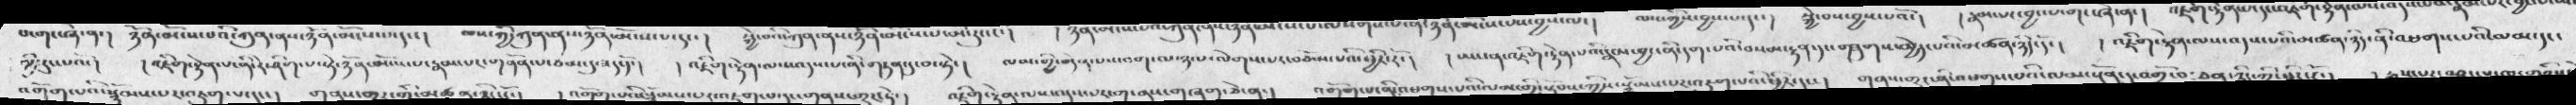ལྟི་དུས་པའོ་།   ། འཇིག་རྟེན་པ་ནི་རེ་ཤིག་པ་སྟེ་ཉོན་མོངས་པ་རྣམ་པར་གནོན་པ་ཙམ་དུ་ཟད་དོ་།  ། འཇིག་རྟེན་ལས་འདས་པ་ནི་གཏན་དུ་བ་སྟེ་།  ལམ་གྱི་བདེན་པས་བག་ལ་ཉལ་ལལེགས་པར་བཅོམ་པའི་ཕྱིར་རོ་།  ། ཡང་ན་འཇིག་རྟེན་པའི་རྣམ་བྱང་ནི་དག་པའི་བསམ་རྟན་དང་གཟུགས་མྱེད་པའི་མཚན་ཉིད་དོ་།  ། འཇིག་རྟེན་ལས་འདས་པའི་མཚན་ཉིད་ནི་འཕགས་པའི་ལམ་དང་
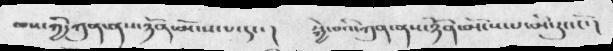ལས་ཀྱི་ཀུན་ནས་ཉོན་མོངས་པ་དང་།   སྐྱེ་བའི་ཀུན་ནས་ཉོན་མོངས་པ་མི་རུང་ངོ་།
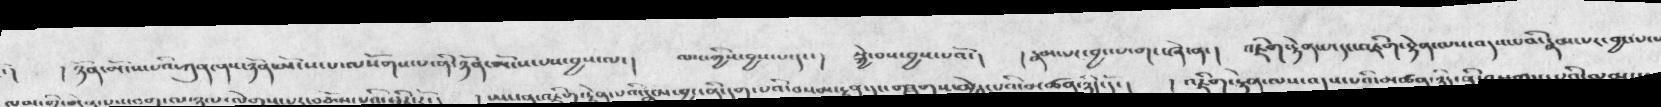། ཉོན་མོངས་པའི་ཀུན་ནས་ཉོན་མོངས་པ་ལསོགས་པ་ནི་ཉོན་མོངས་པས་བྱས་ལ་།  ལས་ཀྱིས་བྱས་པ་དང་།  སྐྱེ་བས་བྱས་པའོ་།   ། རྣམ་པར་བྱང་པ་གང་ཞེ་ན་།  འཇིཏ་རྟེན་པ་དང་འཇིག་རྟེན་ལས་འདས་པའི་རྣམ་པར་བྱང་པ་
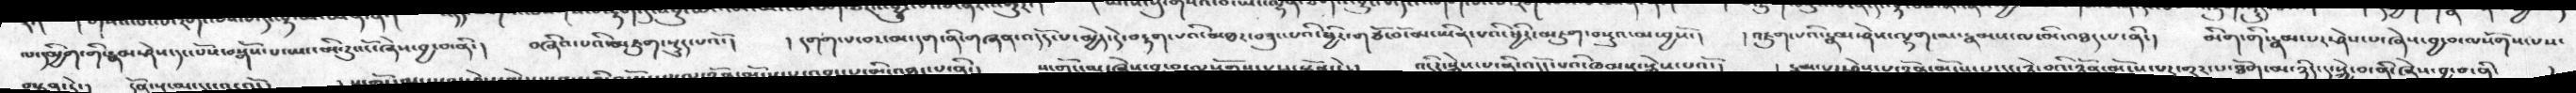ལ་དམྱིག་གི་རྣམ་ཤེས་དང་པོས་བསྒོས་པ་ཡང་མི་རུང་ངོ་ཞེས་བྱ་བ་ནི་།  བཞིའ་པའི་མཇུག་སྡུད་པའོ་།   ། དགག་པ་བར་མ་དག་ནི་གཞན་འདོད་པ་མྱེད་དེ་བརྟག་པའི་མཐར་བཟུང་པའི་ཕྱིར་གཙོ་བོ་མ་ཡིན་པའི་ཕྱིར་མཇུག་བསྡུའ་མ་བྱསོ་།  ། འཇུག་པའི་རྣམ་ཤེས་ལྷག་མ་རྣམས་ལ་མི་འཐད་པ་ནི་།  མིག་གི་རྣམ་པར་ཤེས་པ་ཞེས་བྱ་བ་ལསོགས་པས་
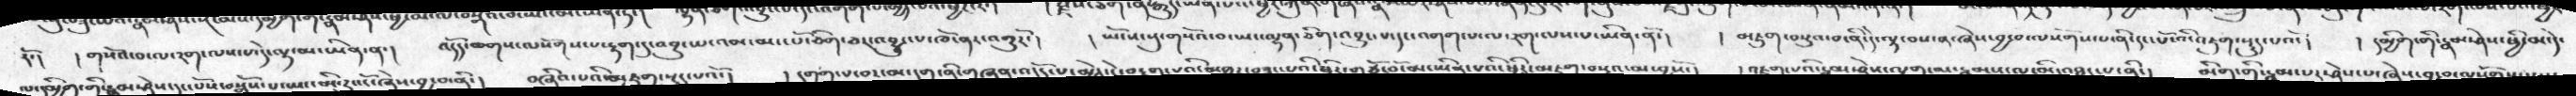རོ༴།  ། གསོའ་བ་ལ་རག་ལས་པ་དེ་ལྟ་མ་ཡིན་ན་།  འདོད་ཆགས་ལསོགས་པ་རྟག་དུ་འབྱུང་པ་འམ་མང་པོ་ཅིག་ཅར་འབྱུང་པ་ཁོ་ན་འགྱུརོ་།  ། ཡོངས་སུ་གསོའ་བ་ཡང་ལྷན་ཅིག་འབྱུང་པ་དང་འགག་པ་ལ་རག་ལས་པ་ཡིན་ནོ་།  ། མཇུག་བསྡུའ་བ་ནི་དེ་ལྟ་བས་ན་ཞེས་བྱ་བ་ལསོགས་པ་ནི་དང་པོ་འི་འཇུག་སྡུད་པའོ་།   ། དམྱིག་གི་རྣམ་ཤེས་ཕྱི་མ་དེ་
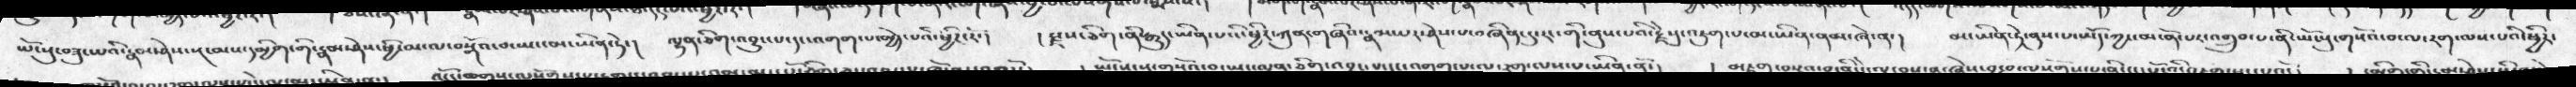ཡོངསུ་བཟུང་པའི་རྣམ་ཤེས་སྔ་མས་དམྱིག་གི་རྣམ་ཤེས་ཕྱི་ལ་ལ་བསྒོའ་བ་ཡང་མ་ཡིན་ཏེ་།  ལྷན་ཅིག་འབྱུང་པདང་འགག་པ་མྱེད་པའི་ཕྱིར་རོ་།  ། རྫས་ཅིག་ནི་རྒྱུད་ཡིན་པའི་ཕྱིར་ཀུན་གཞིའ་རྣམ་པར་ཤེས་པ་བཞིན་དུ་རང་གི་ནུས་པའི་རྗེས་སུ་འཇུག་པ་མ་ཡིན་ནམ་ཞེ་ན་།  མ་ཡིན་ཏེ་ནུས་པ་ཡོད་ཀྱང་མ་ནོ་པར་འགྲུབ་པ་ནི་ཡོངསུ་གསོའ་བ་ལ་རག་ལས་པའི་ཕྱིར་
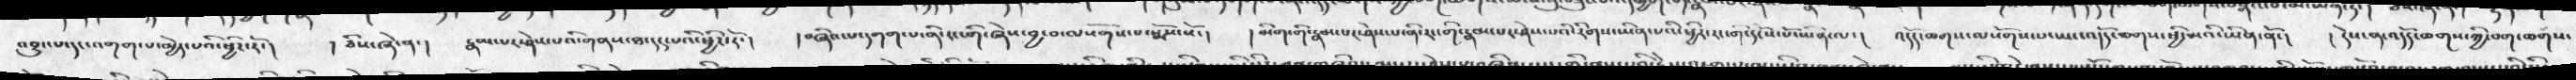འབྱུང་པ་དང་འགག་པ་མྱེད་པའི་ཕྱིར་རོ་།  ། ཅིས་ཞེ་ན་།  རྣམ་པར་ཤེས་པའི་གནས་ཐ་དད་པའི་ཕྱིར་རོ་།  ། བཞིའ་པ་དགག་པ་ནི་རང་གི་ཞེས་བྱ་ལསོགས་པ་སྨོས་སོ་།  ། མིག་གི་རྣམ་པར་ཤེས་པ་ནི་རང་གི་རྣམ་པར་ཤེས་རིགས་ཡིན་པའི་ཕྱིར་རང་གི་དངོས་ཡོན་ལ་།  འདོད་ཆགས་ལསོགས་པ་ཡང་འདོད་ཆགས་ཕྱི་མའི་ཡིན་ནོ་།  ། དེས་ན་འདོད་ཆགས་ཀྱི་བག་ཆགས་
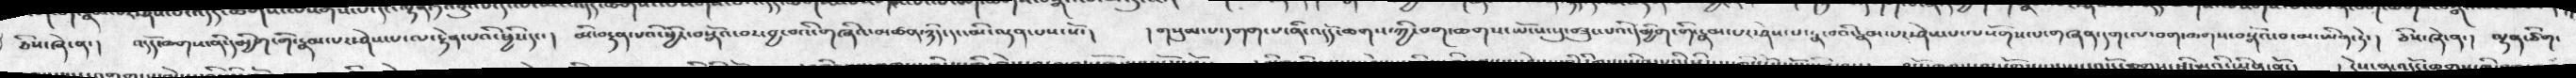ཅེས་ཞེ་ན་།  འདོད་ཆགས་ནི་དམྱིག་གི་རྣམ་པར་ཤེས་པ་ལ་རྟེན་པའི་ཕྱིར་དང་།  མི་བརྟན་པའི་ཕྱིར་བསྒོའ་བར་བྱ་བའི་གཞིའ་མཚན་ཉིད་དང་མི་ལྡན་པས་སོ་།  ། གསུམ་པ་དགག་པ་ནི་འདོད་ཆགས་ཀྱི་བག་ཆགས་ཡོངས་སུ་བཟུང་པའི་དམྱིག་གི་རྣམ་པར་ཤེས་པ་རྣ་བའི་་རྣ་བའི་རྣམ་པར་ཤེས་པ་ལསོགས་པ་གཞན་དག་ལ་བག་ཆགས་བསྒོའ་བ་མ་ཡིན་ཏེ་།  ཅེས་ཞེ་ན་།  ལྷན་ཅིག་
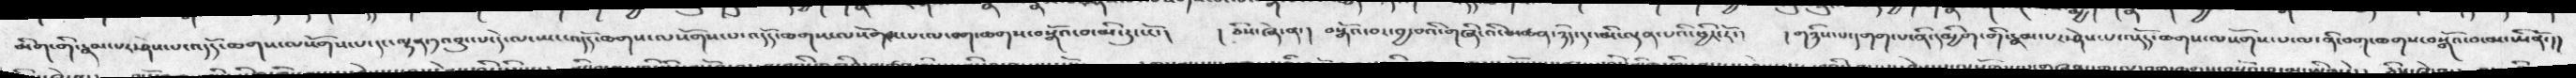མིག་གི་རྣམ་པར་ཤེས་པ་འདོད་ཆགས་ལསོགས་པ་དང་ལྷན༡་འབྱུང་པ་དེ་ལ་ཡང་འདོད་ཆགས་ལསོགས་པ་འདོད་ཆགས་ལསོགས་པ་ལ་བག་ཆགས་བསྒོའ་བ་མི་རུང་ངོ་།  ། ཅིས་ཞེ་ན་།  བསྒོའ་བར་བྱ་པའི་གཞི་འི་མཚན་ཉིད་དང་མི་ལྡན་པའི་ཕྱིར་རོ་།   ། གཉིས་པ་དགག་པ་ནི་དམྱིག་གི་རྣམ་པར་ཤེས་པ་འདོད་ཆགས་ལསོགས་པ་ལ་ནི་བག་ཆགས་བསྒོའ་བ་མ་ཡིནོ་།།
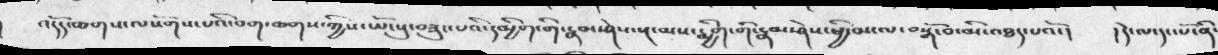འདོད་ཆགས་ལསོགས་པའི་བག་ཆགས་ཀྱིས་ཡོངསུ་བཟུང་པའི་དམྱིག་གི་རྣམ་ཤེས་སྔ་མས་རྨྱིག་གི་རྣམ་ཤེས་ཕྱི་མ་ལ་བསྒོ་བ་མི་འཐད་པའོ་།  ། དེ་ལ་དང་པོ་ནི་
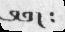༄༅།  ༴
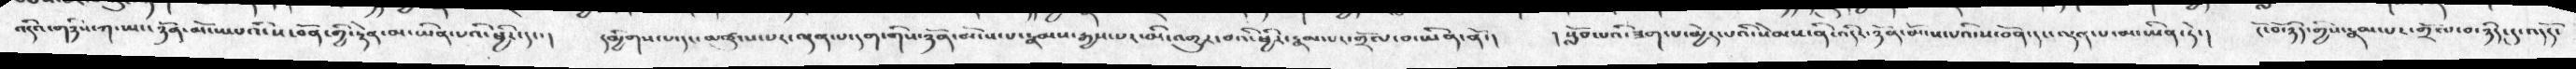འདིའ་གཉིས་ཀ་ཡང་ཉོན་མོངས་པའི་ས་བོན་གྱི་རྟེན་མ་ཡིན་པའི་ཕྱིར་དང་།  དམྱིགས་པ་དང་མཚུངས་པར་ལྡན་པ་དག་གིས་ཉོན་མོངས་པ་རྣམས་རྒྱས་པར་མི་འགྱུར་བའི་ཕྱིར་རྣམ་པར་གྲོལ་བ་ཡིན་ནོ།  ། སློབ་པའི་ཟག་པ་མྱེད་པའི་སེམས་ནི་འདི་ཉོན་མོངས་པའི་ས་བོན་དང་ལྡན་པ་མ་ཡིན་ཏེ་།  ངོ་བོ་ཉིད་གྱིས་རྣམ་པར་གྲོལ་བ་ཉིད་དུ་འདོད་
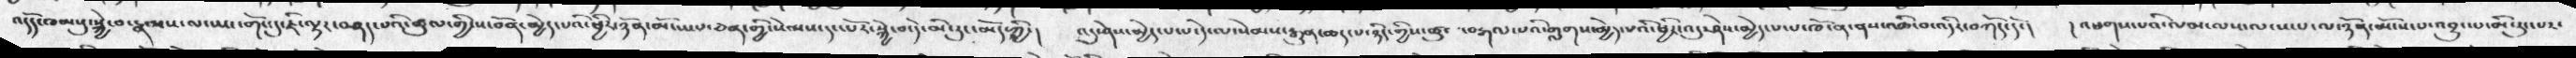འདོད་ཁམསུ་སྐྱེ་བ་རྣམས་ལ་ཡང་གོང་དུ་ཇི་ལྟར་བཤད་པའི་ཚུལ་གྱིས་ས་བོན་མྱེད་པའི་ཕྱིར་ཉོན་མོངས་པ་ཅན་གྱི་སེམས་དང་པོར་སྐྱེ་བ་དེ་མི་རུང་མོད་ཀྱི་།  འདུ་ཤེས་མྱེད་པ་པ་དེ་ལ་སེམས་རྒྱུན་ཆད་པ་ཉིད་གྱིས་ཚུལ་བརྒལ་པའི་གླགས་མྱེད་པའི་ཕྱིརོ་འདུ་ཤེས་མྱེད་པ་པ་ཁོ་ན་ནས་འཆི་བ་འདིར་བཀོད་དོ་།  ། འཕགས་པའི་ལམ་ལས་ལངས་པ་ལ་ཉོན་མོངས་པ་འབྱུང་པ་མི་རུང་པར་
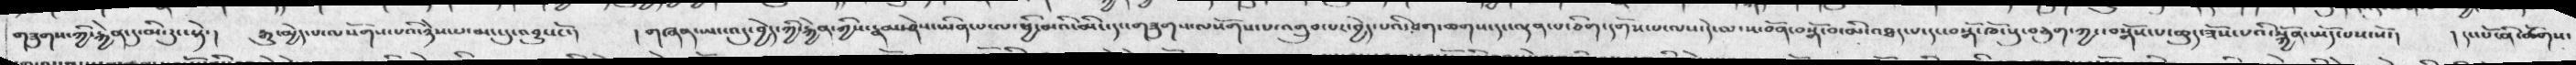གཟུགས་ཀྱི་རྐྱེན་དུ་མི་རུང་སྟེ་།  རྒྱུ་མྱེད་པ་ལསོགས་པའི་ཉེས་པ་མང་དུ་འབྱུང་ངོ་།  ། གཞན་ཡང་འདུ་བྱེད་ཀྱི་རྐྱེན་ཀྱིས་རྣམ་ཤེས་ཡིན་པ་ལ་ཕྱི་མའི་མིང་དང་གཟུགས་ལསོགས་པ་འགྲུབ་པར་བྱེད་པའི་བག་ཆགས་དང་ལྡན་པ་ཅིག་དགོས་པ་ལས་དེ་ལ་ས་བོན་བསྒོ་བ་མི་འཐད་པ་དང་བསྒོ་ཁོངསུ་བཅུག་ཀྱང་བསྒོས་པ་ཆུད་ཟོས་པའི་སྐྱོན་ཡོད་པས་སོ་།  ། དང་པོ་ནི་ཚོགས་
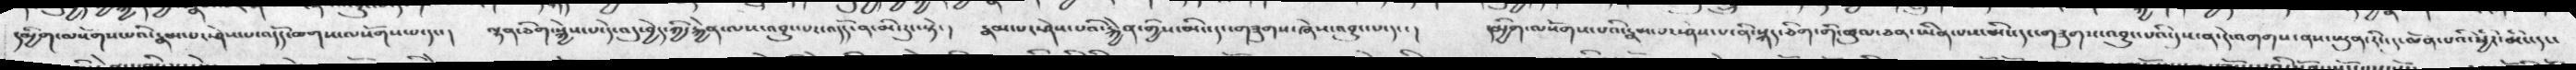དམྱིག་ལསོགས་པའི་རྣམ་པར་ཤེས་པ་འདོད་ཆགས་ལསོགས་པ་དང་།  ལྷན་ཅིག་སྐྱེས་པ་དེ་འདུ་བྱེད་ཀྱི་རྐྱེན་ལས་འབྱུང་པར་འདོད་ན་མི་རུང་སྟེ་།  རྣམ་པར་ཤེས་པའི་རྐྱེན་གྱིས་མིང་དང་གཟུགས་ཞེས་འབྱུང་པ་དང་།  དམྱིག་ལསོགས་པའི་རྣམ་པར་ཤེས་པ་ནི་སྐད་ཅིག་གི་ཚུལ་ཅན་ཡིན་པས་མིང་དང་གཟུགས་འབྱུང་པའི་དུས་ན་དེ་འགགས་ནས་ཡུན་རིང་དང་ལོན་པའི་ཕྱིར་མིང་དང་
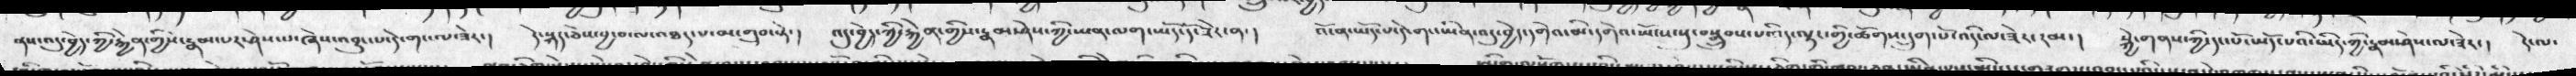ནས་འདུ་བྱེད་ཀྱི་རྐྱེན་གྱིས་རྣམ་པར་ཤེས་པ་ཞེས་འབྱུང་པ་དེ་གང་ལ་ཟེར་།  དེ་སྐད་ཅེས་བྱ་བ་ལ་འཐད་པ་མ་གྲུབ་སྟེ་།  འདུ་བྱེད་ཀྱི་རྐྱེན་གྱིས་རྣམ་ཤེས་ཀྱི་ཡན་ལག་ཡོད་དོ་ཟེར་ན་།  འོ་ན་ཡོད་པ་དེ་གང་ཡིན་འདུ་བྱེད་དགེའ་མི་དགེའ་ཡོངས་སུ་བསྒྲུབས་པའི་ད་ལྟར་གྱི་ཚོགས་དྲུག་པོ་འདི་ལ་ཟེར་རམ་།  སྐྱེ་གནས་ཀྱི་དང་པོ་ཡོད་པའི་ཡིད་ཀྱི་རྣམ་ཤེས་ལ་ཟེར་།  དེ་ལ་
